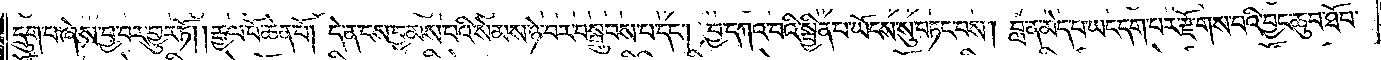དྲུག་པ་ཞེས་བྱ་བར་གྱུར་ཏོ། །རྒྱལ་པོ་ཆེན་པོ། དེ་ན་ངས་བྱམས་པའི་སེམས་ཉེ་བར་བསྒྲུབས་པ་དང༌། བྱ་དཀའ་བའི་སྦྱིན་པ་ཡོངས་སུ་བཏང་བས། བླ་ན་མེད་པ་ཡང་དག་པར་རྫོགས་པའི་བྱང་ཆུབ་ཐོབ་
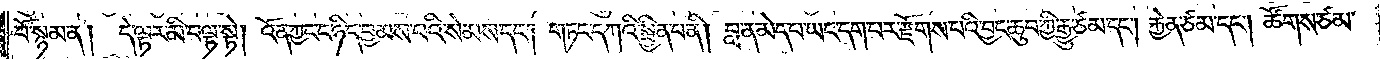བོ་སྙམ་ན། དེ་ལྟར་མི་བལྟ་སྟེ། འོན་ཀྱང་ང་ཉིད་བྱམས་པའི་སེམས་དང༌། གཏང་དཀའི་སྦྱིན་པ་ནི། བླ་ན་མེད་པ་ཡང་དག་པར་རྫོགས་པའི་བྱང་ཆུབ་ཀྱི་རྒྱུ་ཙམ་དང༌། རྐྱེན་ཙམ་དང༌། ཚོགས་ཙམ་
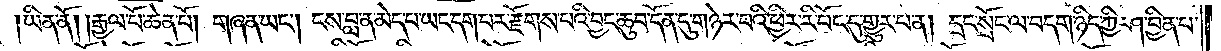ཡིན་ནོ། །རྒྱལ་པོ་ཆེན་པོ། གཞན་ཡང༌། ངས་བླ་ན་མེད་པ་ཡང་དག་པར་རྫོགས་པའི་བྱང་ཆུབ་དོན་དུ་གཉེར་བའི་ཕྱིར་རི་བོང་དུ་གྱུར་པ་ན། དྲང་སྲོང་ལ་བདག་ཉིད་ཀྱི་ཤ་བྱིན་པ་
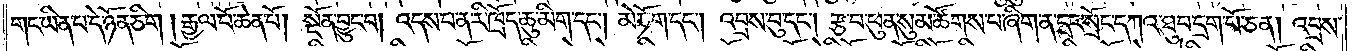གང་ཡིན་པ་དེ་ཉོན་ཅིག །རྒྱལ་པོ་ཆེན་པོ། སྔོན་བྱུང་བ། འདས་པ་ན་རི་ཁྲོད་ཆུ་མིག་དང༌། མེ་ཏོག་དང༌། འབྲས་བུ་དང༌། རྩ་བ་ཕུན་སུམ་ཚོགས་པ་ཞིག་ན་དྲང་སྲོང་དཀའ་ཐུབ་དྲག་པོ་ཅན། འབྲས་
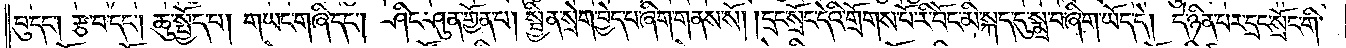བུ་དང༌། རྩ་བ་དང༌། ཆུ་སྤྱོད་པ། གཡང་གཞི་དང༌། ཤིང་ཤུན་གྱོན་པ། སྦྱིན་སྲེག་བྱེད་པ་ཞིག་གནས་སོ། །དྲང་སྲོང་དེའི་གྲོགས་པོ་རི་བོང་མི་སྐད་དུ་སྨྲ་བ་ཞིག་ཡོད་དེ། དེ་ཉིན་པར་དྲང་སྲོང་གི་
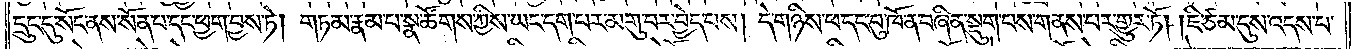དྲུང་དུ་སོང་ནས་སོན་པ་དང་ཕྱག་བྱས་ཏེ། གཏམ་རྣམ་པ་སྣ་ཚོགས་ཀྱིས་ཡང་དག་པར་མགུ་བར་བྱེད་པས། དེ་གཉིས་ཕ་དང་བུ་ཁོ་ན་བཞིན་སྡུག་པས་གནས་པར་གྱུར་ཏོ། །ཇི་ཙམ་དུས་འདས་པ་
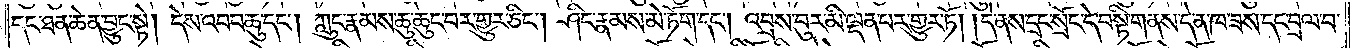དང་ཐན་ཆེན་བྱུང་སྟེ། དེས་འབབ་ཆུ་དང༌། ཀླུང་རྣམས་ཆུ་ཆུང་བར་གྱུར་ཅིང༌། ཤིང་རྣམས་མེ་ཏོག་དང༌། འབྲས་བུར་མི་ལྡན་པར་གྱུར་ཏོ། །དེ་ནས་དྲང་སྲོང་དེ་བསྟི་གནས་དེ་ན་ཁ་ཟས་དང་བྲལ་བ་
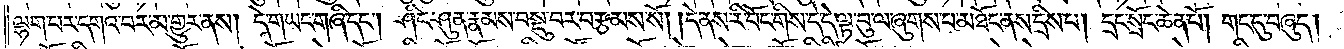ལྷག་པར་དགའ་བར་མ་གྱུར་ནས། དེ་གཡང་གཞི་དང༌། ཤིང་ཤུན་རྣམས་བསྡུ་བར་བརྩམས་སོ། །དེ་ནས་རི་བོང་གིས་དེ་དེ་ལྟ་བུ་ལ་ཞུགས་པ་མཐོང་ནས་དྲིས་པ། དྲང་སྲོང་ཆེན་པོ། གང་དུ་བཞུད།
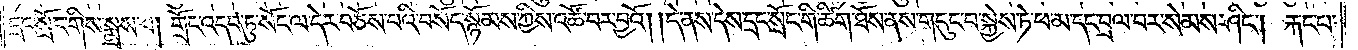དྲང་སྲོང་གིས་སྨྲས་པ། གྲོང་འདབ་ཏུ་སོང་ལ་དེར་བཅོས་པའི་བསོད་སྙོམས་ཀྱིས་འཚོ་བར་བྱའོ། །དེ་ནས་དེས་དྲང་སྲོང་གི་ཚིག་ཐོས་ནས་གདུང་བ་སྐྱེས་ཏེ་ཕ་མ་དང་བྲལ་བར་སེམས་ཤིང༌། རྐང་པ་
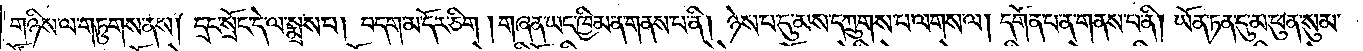གཉིས་ལ་གཏུགས་ནས། དྲང་སྲོང་དེ་ལ་སྨྲས་པ། བདག་མ་དོར་ཅིག །གཞན་ཡང་ཁྱིམ་ན་གནས་པ་ནི། ཉེས་པ་དུ་མས་དཀྲུགས་པ་ལགས་ལ། དགོན་པ་ན་གནས་པ་ནི། ཡོན་ཏན་དུ་མ་ཕུན་སུམ་
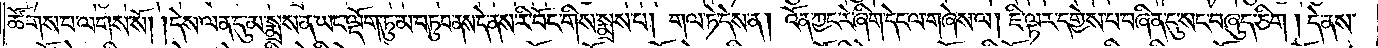ཚོགས་པ་ལགས་སོ། །དེས་ལན་དུ་མ་སྨྲས་ན་ཡང་ལྡོག་ཏུ་མ་བཏུབ་ནས་དེ་ནས་རི་བོང་གིས་སྨྲས་པ། གལ་ཏེ་དེས་ན། འོན་ཀྱང་རེ་ཞིག་དེང་ལ་གཞེས་ལ། ཇི་ལྟར་དགྱེས་པ་བཞིན་དུ་སང་བཞུད་ཅིག །དེ་ནས་
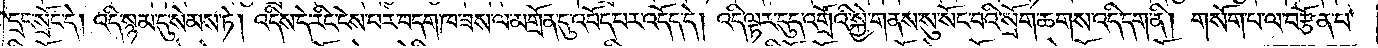དྲང་སྲོང་དེ། འདི་སྙམ་དུ་སེམས་ཏེ། འདིས་དེ་རིང་ངེས་པར་བདག་ཁ་ཟས་ལ་མགྲོན་དུ་འབོད་པར་འདོད་དེ། འདི་ལྟར་དུད་འགྲོའི་སྐྱེ་གནས་སུ་སོང་བའི་སྲོག་ཆགས་འདི་དག་ནི། གསོག་པ་ལ་བརྩོན་པ་
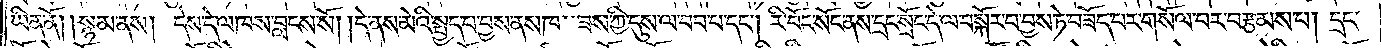ཡིན་ནོ། །སྙམ་ནས། དེས་དེ་ལ་ཁས་བླངས་སོ། །དེ་ནས་མེའི་སྤྱད་པ་བྱས་ནས་ཁ་ཟས་ཀྱི་དུས་ལ་བབ་པ་དང༌། རི་བོང་སོང་ནས་དྲང་སྲོང་དེ་ལ་བསྐོར་བ་བྱས་ཏེ་བཟོད་པར་གསོལ་བར་བརྩམས་པ། དྲང་
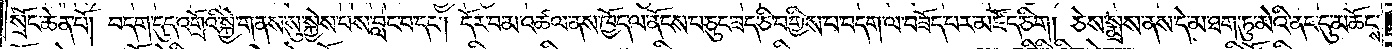སྲོང་ཆེན་པོ། བདག་དུད་འགྲོའི་སྐྱེ་གནས་སུ་སྐྱེས་པས་བླང་བ་དང༌། དོར་བ་མ་འཚལ་ནས་ཁྱོད་ལ་ནོངས་པ་ཅུང་ཟད་ཅི་བགྱིས་པ་བདག་ལ་བཟོད་པར་མཛོད་ཅིང༌། ཅེས་སྨྲས་ནས་དེ་མ་ཐག་ཏུ་མེའི་ནང་དུ་མཆོངས་
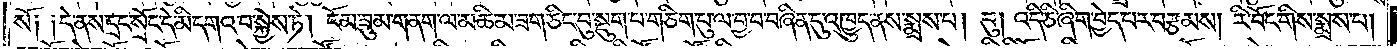སོ༑ ༑དེ་ནས་དྲང་སྲོང་དེ་མི་དགའ་བ་སྐྱེས་ཏེ། ངོམ་ཟུམ་གནག་ལ་མཆི་མ་ཟག་ཅིང་བུ་སྡུག་པ་གཅིག་པུ་ལ་བྱ་བ་བཞིན་དུ་འཁྱུད་ནས་སྨྲས་པ། བུ། འདི་ཅི་ཞིག་བྱེད་པར་བརྩམས། རི་བོང་གིས་སྨྲས་པ།
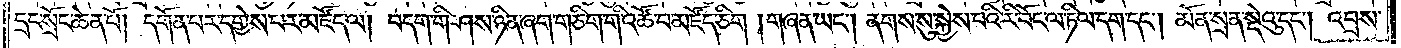དྲང་སྲོང་ཆེན་པོ། དགོན་པར་དགྱེས་པར་མཛོད་ལ། བདག་གི་ཤས་ཉིན་ཞག་གཅིག་གི་འཚོ་བ་མཛོད་ཅིག །གཞན་ཡང༌། ནགས་སུ་སྐྱེས་པའི་རི་བོང་ལ་ཏིལ་དག་དང༌། མོན་སྲན་སྡེའུ་དང༌། འབྲས་
